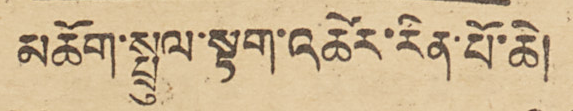མཆོག་སྤྲུལ་སྟག་འཚེར་རིན་པོ་ཆེ།
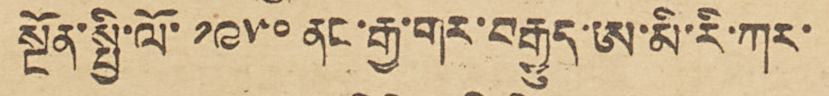སྔོན་སྤྱི་ལོ་ ༡༩༥༠ ནང་རྒྱ་གར་བརྒྱུད་ཨ་མི་རི་ཀར་
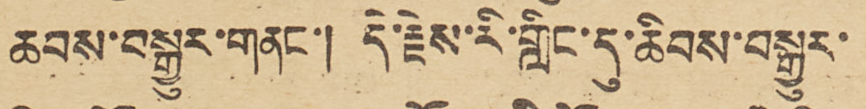ཆབས་བསྒྱུར་གནང་། དེ་རྗེས་རི་གླིང་དུ་ཆིབས་བསྒྱུར་
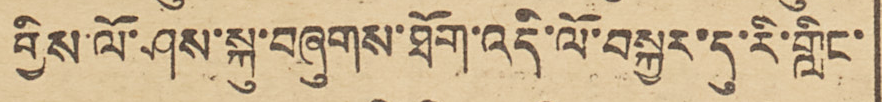གྱིས་ལོ་ཤས་སྐུ་བཞུགས་ཐོག་འདི་ལོ་བསྐྱར་དུ་རི་གླིང་
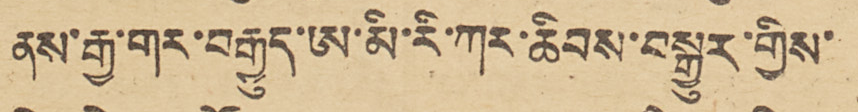ནས་རྒྱ་གར་བརྒྱུད་ཨ་མི་རི་ཀར་ཆིབས་བསྒྱུར་གྱིས་
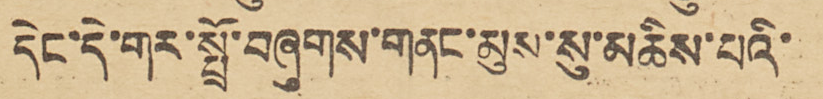དེང་དེ་གར་སྤྲོ་བཞུགས་གནང་མུས་སུ་མཆིས་པའི་
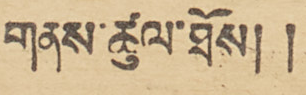གནས་ཚུལ་ཐོས། །
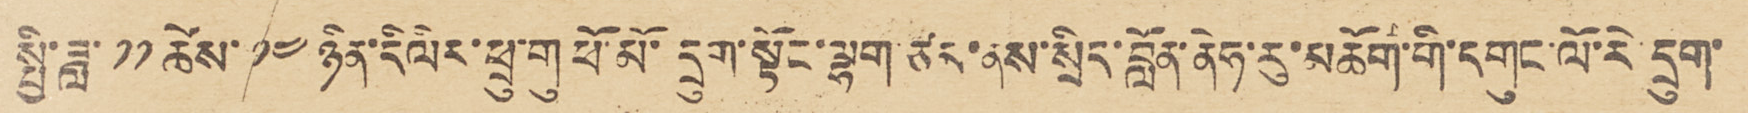སྤྱི་ཟླ་ ༡༡ ཚེས་ ༡༤ ཉིན་དི ལིར་ཕྲུ་གུ ཕོ་མོ་དྲུག་སྟོང་ལྷག་ཙམ་ནས་སྲིད་བློན་ནེཧ་རུ་མཆོག་གི་དགུང་ལོ་རེ དྲུག་
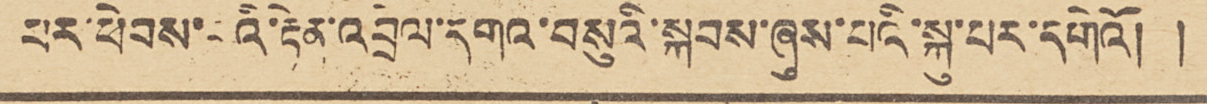པར་ཕེབས་པའི་རྟེན་འབྲེལ་དགའ་བསུའི་སྐབས་ཞུས་པའི་སྐུ་པར་དགེའོ། །
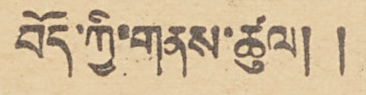བོད་ཀྱི་གནས་ཚུལ། །
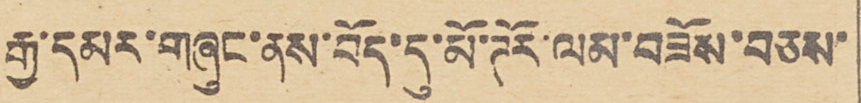རྒྱ་དམར་གཞུང་ནས་བོད་དུ་མོ་ཊོར་ལམ་བཟོས་བཅས་
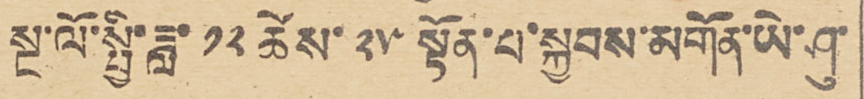སྔ་ལོ་སྤྱི་ཟླ་ ༡༢ ཚེས་ ༢༥ སྟོན་པ་སྐྱབས་མགོན་ཡེ་ཤུ་
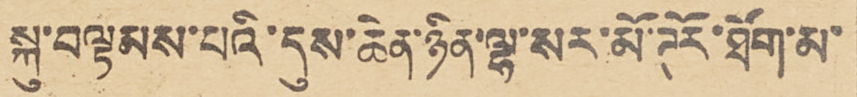སྐུ་བལྟམས་པའི་དུས་ཆེན་ཉིན་ལྷ་སར་མོ་ཊོར་ཐོག་མ་
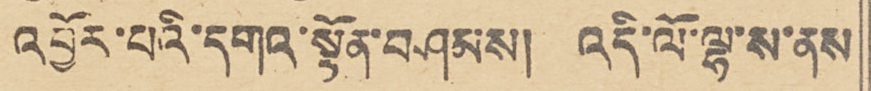འབྱོར་པའི་དགའ་སྟོན་བཤམས། འདི་ལོ་ལྷ་ས་ནས
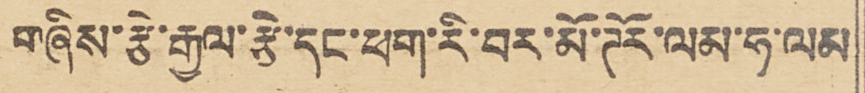གཞིས་རྩེ་རྒྱལ་རྩེ་དང་ཕག་རི་བར་མོ་ཊོར་ལམ་ཧ་ལམ
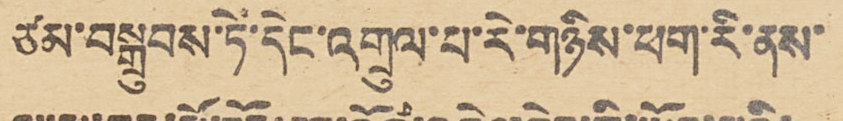ཙམ་བསྒྲུབས་ཏེ་དེང་འགྲུལ་པ་རེ་གཉིས་ཕག་རི་ནས་
